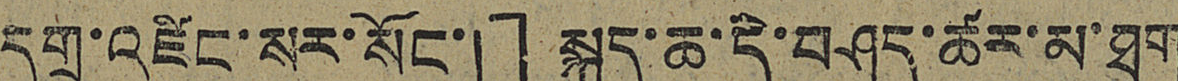དགྲ་འཛིང་སར་སོང་།」སྐད་ཆ་དེ་བཤད་ཚར་མ་ཐག
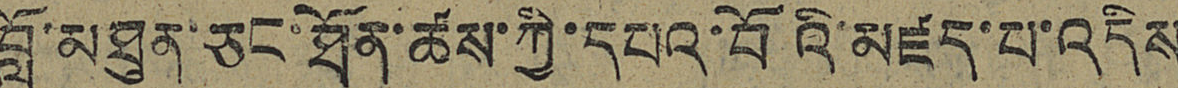བློ་མཐུན་ཅང་ཐོན་ཚས་ཀྱི་དཔའ་བོའི་མཛད་པ་འདིས
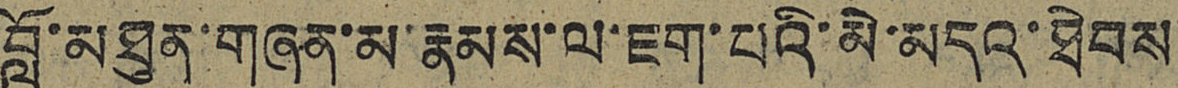བློ་མཐུན་གཞན་མ་རྣམས་ལ་ཇག་པའི་མེ་མདའ་ཐེབས་
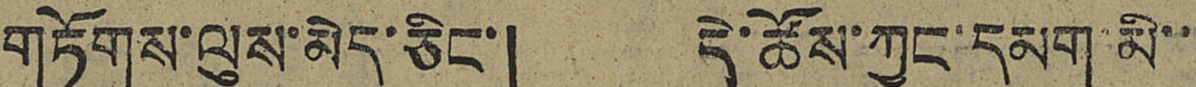གཏོགས་ལུས་མེད་ཅིང་། དེ་ཚོས་ཀྱང་དམག་མི་་
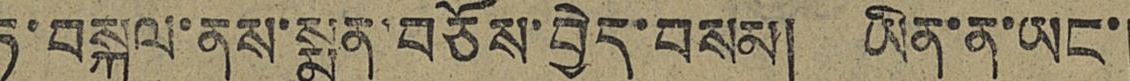ཏུ་བསྐྱལ་ནས་སྨན་བཅོས་བྱེད་བསམ། ཡིན་ན་ཡང་།
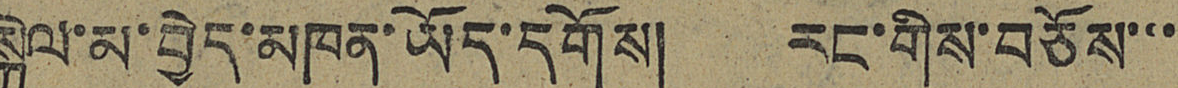སྐྱེལ་མ་བྱེད་མཁན་ཡོད་དགོས། རང་གིས་བཅོས་་་
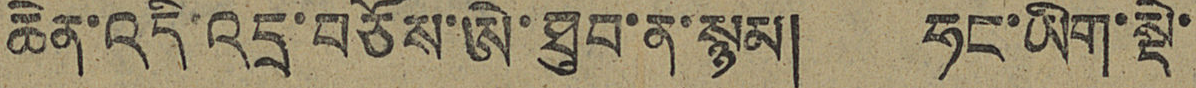ཆེན་འདི་འདྲ་བཅོས་ཨེ་ཐུབ་ན་སྙམ། ཧང་ཡིག་སྡེ་
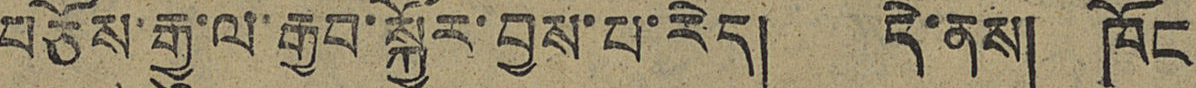བཅོས་རྒྱུ་ལ་རྒྱབ་སྐྱོར་བྱས་པ་རེད། དེ་ནས། ཁོང
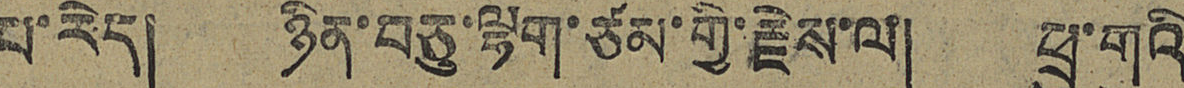པ་རེད། ཉིན་བཅུ་ལྷག་ཙམ་གྱི་རྗེས་ལ། ཕྲུ་གུའི
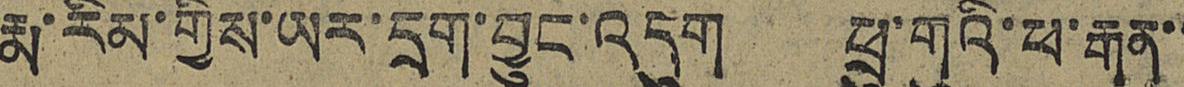རྨ་རིམ་གྱིས་ཡར་དྲག་བྱུང་འདུག ཕྲུ་གུའི་ཕ་རྒན་་
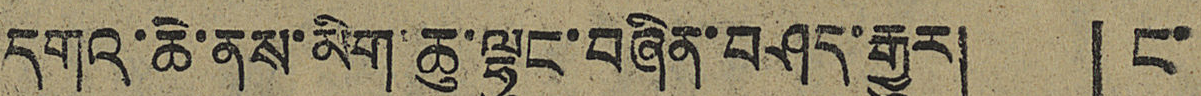དགའ་ཆེ་ནས་མིག་ཆུ་ལྷུང་བཞིན་བཤད་རྒྱུར། 「ང་
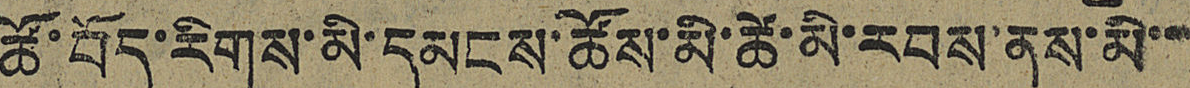ཚོ་བོད་རིགས་མི་དམངས་ཚོས་མི་ཚེ་མི་རབས་ནས་མི་་་
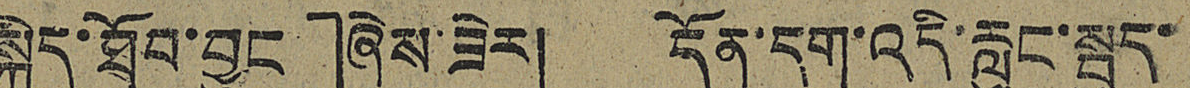སྐྱིད་ཐོབ་བྱུང」ཞེས་ཟེར། དོན་དག་འདི་རླུང་སྦུད་
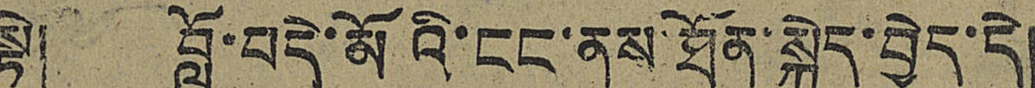སྟེ། བློ་བདེ་མོའི་ངང་ནས་ཐོན་སྐྱེད་བྱེད་དེ།
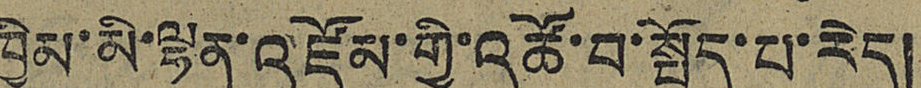ཁྱིམ་མི་ལྷན་འཛོམ་གྱི་འཚོ་བ་སྤྱོད་པ་རེད།
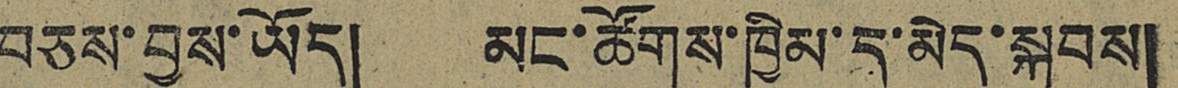བཅས་བྱས་ཡོད། མང་ཚོགས་ཁྱིམ་དུ་མེད་སྐབས།
